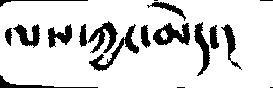ལས་ཀྱང་མེད་།
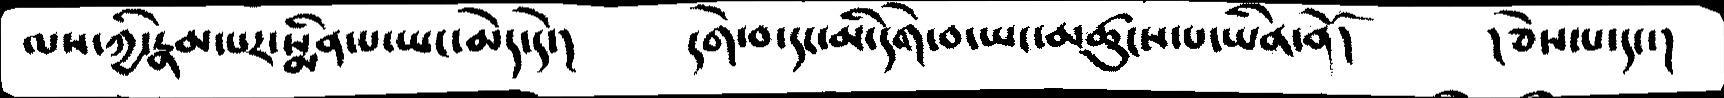ལས་ཀྱི་རྣམ་པར་སྨིན་པ་ཡང་མེད་དེ་།      དགེ་བ་དང་མི་དགེ་བ་ཡང་མཚུངས་པ་ཡིན་ནོ།     །ཅེས་པས་དང་།
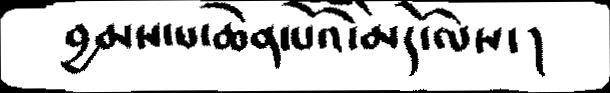བྱམས་པ་ཆེན་པོའི་མདོ་ལས་།
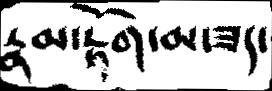རྣམ་རྟོག་མ་ཟད་
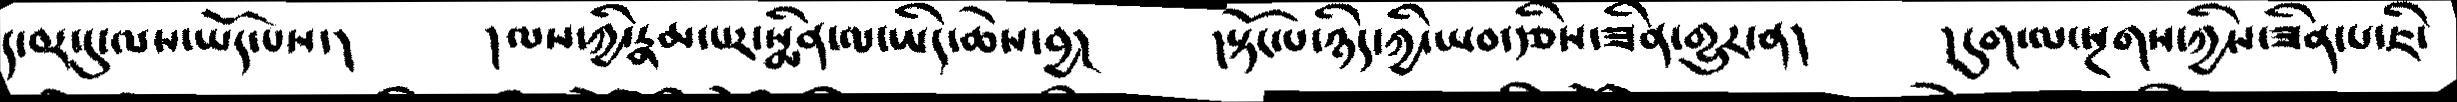ད་བར་དུ་ལས་ཡོད་པས་།       །ལས་ཀྱི་རྣམ་པར་སྨིན་ལ་ཡིད་ཆེས་བྱ།     །སྟོང་པ་ཉིད་ཀྱི་ཡབ་རྩིས་ཟིན་གྱུར་ན།      །དུག་ལ་སྔགས་ཀྱིས་ཟིན་པ་ཇི་
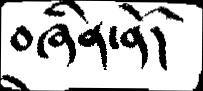བཞིན་ནོ།
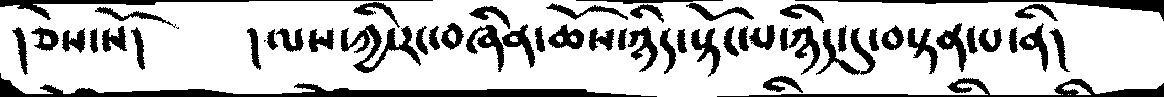།ཅེས་སོ།        །ལས་ཀྱི་རང་བཞིན་ཆོས་ཉིད་སྟོང་པ་ཉིད་དུ་བསྟན་པ་ནི།
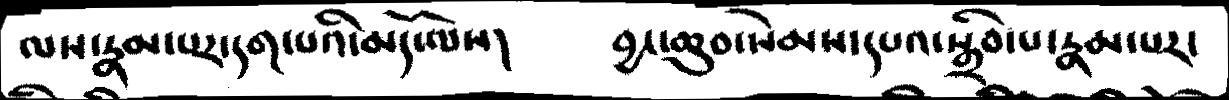ལས་རྣམ་པར་དག་པའི་མདོ་ལས།         བྱང་ཆུབ་སེམས་དཔའ་སྒྲིབ་པ་རྣམ་པར།
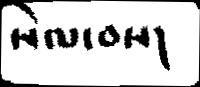སེལ་བས།
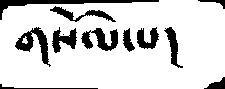གསོལ་པ།
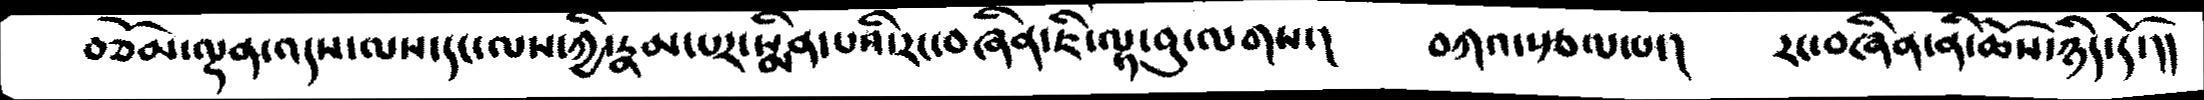བཅོམ་ལྡན་འདས་ལས་དང་ལས་ཀྱི་རྣམ་པར་སྨིན་པའི་རང་བཞིན་ཇི་ལྟ་བུ་ལགས་།     བཀའ་རྩལ་པ་།      རང་བཞིན་ནི་ཆོས་ཉིད་དོ་།།
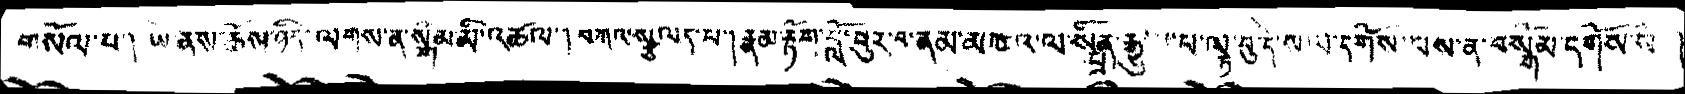གསོལ་པ་།   ཡེ་ནས་ཆོས་ཉིད་ལགས་ན་སྒོམ་མི་འཚལ་།  བཀའ་སྩལད་པ་། རྣམ་རྟོག་བློ་བུར་བ་ནམ་མཁའ་ལ་རྒྱུ་པ་ལྟ་བ་དེ་སལ་དགོས་པས་ན་བསྒོམ་དགོས་སོ།
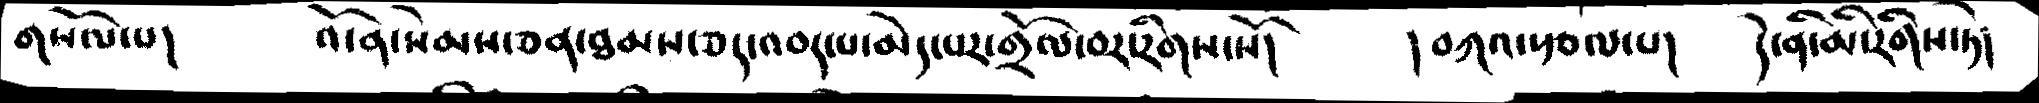གསོལ་པ།      འོ་ན་སེམས་ཅན་ཐམས་ཅད་འབད་པ་མེད་པར་གྲོལ་བར་རིགས་སོ།     །བཀའ་རྩལ་པ།       དེ་ནི་མི་རིགས་ཏེ།
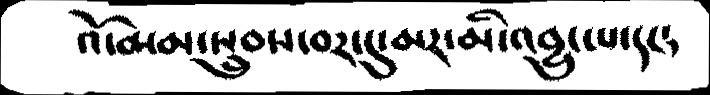འོ་མམ་སྲུབས་བར་དུ་མར་མི་འབྱུང་པ་དང་
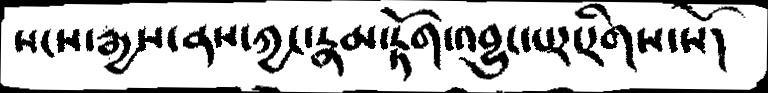སངས་རྒྱས་ནས་ཀྱང་རྣམ་རྟོག་འབྱུང་པར་རིགས་སོ།
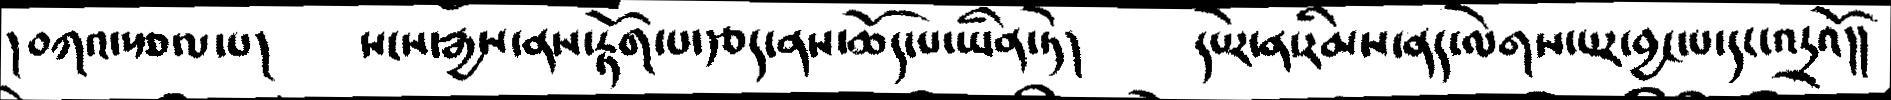།བཀའ་རྩལ་པ།    སངས་རྒྱས་ནས་རྟོག་པ་རྩད་ནས་ཆོད་པ་ཡིན་ཏེ།     དཔེར་ན་རིམས་ནད་ལེགས་པར་བྱང་པདང་འདྲའོ།།
